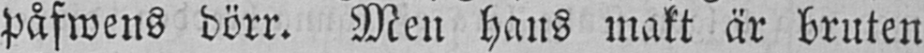påfwens dörr. Men hans makt är bruten
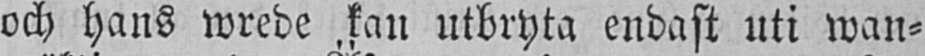och hans wrede kan utbryta endast uti wan-
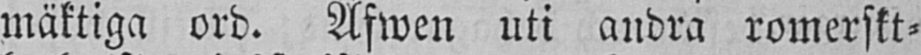mäktiga ord. Äfwen uti andra romerskt-
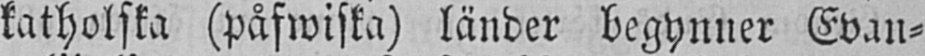katholska (påfwiska) länder begynner Evan-
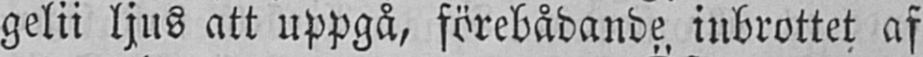gelii ljus att uppgå, förebådande inbrottet af
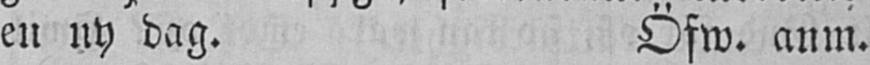en ny dag. Öfw. anm.
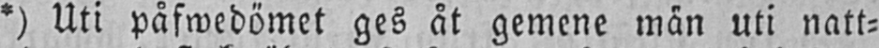*) Uti påfwedömet ges åt gemene män uti natt-
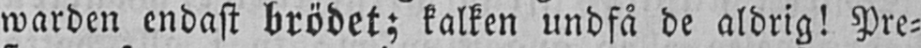warden endast brödet; kalken undfå de aldrig! Pre-
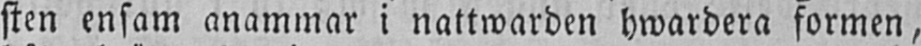sten ensam anammar i nattwarden hwardera formen,
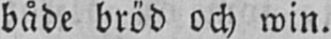både bröd och win.
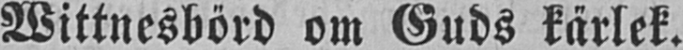Wittnesbörd om Guds kärlek.
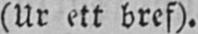(Ur ett bref).
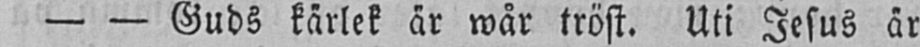- - Guds kärlek är wår tröst. Uti Jesus är
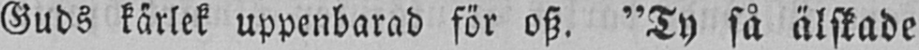Guds kärlek uppenbarad för osz. "Ty så älskade
